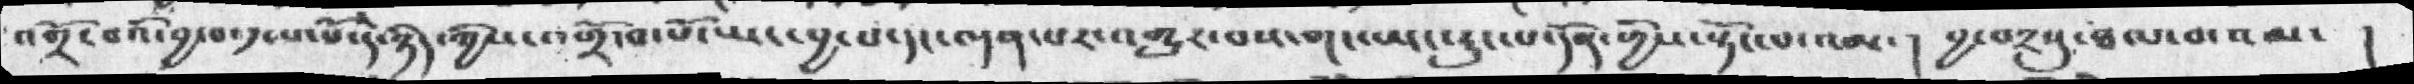འགྲོ་བའི་བྱ་བ་༡་པ་པོ་དེ་ཉིད་ཀྱིས་འགྲོ་བ་པོ་ཡང་བྱ་བ་དང་ལྡན་པར་འགྱུར་བས་གང་ཡང་རུང་པ་དོན་གྱིས་སྟོང་པ་འམ་། བྱ་བ༢སུ་ཐལ་བ་འམ་ །
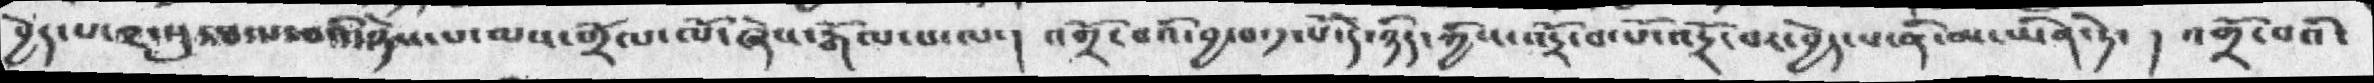བྱེད་པ་༢སུ་ཐལ་བའི་ཉེས་པ་ལས་གྲོལ་ལོ་ཞེས་རྒོལ་པ་ལ་།  འགྲོ་བའི་བྱ་བ་༡་པོ་དེ་ཉིད་ཀྱིས་འདྲོ་བ་པོ་འདྲོ་བར་བྱེད་པ་ནི་མ་ཡིན་ཏེ་། འགྲོ་བའི་
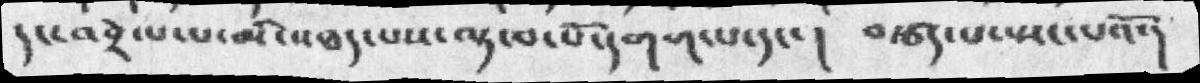དང་འབྲེལ་པ་པ་མི་འཐད་པས་ལྟ་བ་པོ་དགག་པ་དང་། བརྩད་པ་སྤང་པའོ་།
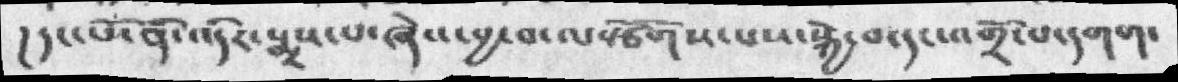།དང་པོ་ནི་འདིར་སྨྲས་པ་ཞེས་བྱ་བ་ལསྩོགས་པས་སྐྱེ་བ་དང་འགྲོ་བ་དགག་
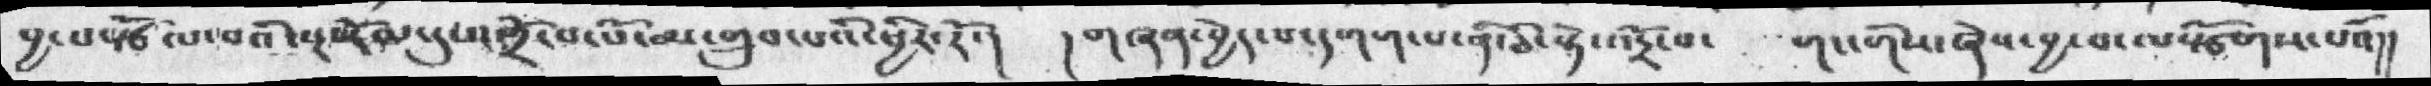བྱ་བ་རྩོལ་བའི་སྔ་རོལ་དུ་འགྲོ་བ་པོ་མ་གྲུབ་པའི་ཕྱིར་རོ་།  །གཞན་བྱེད་པ་དགག་པ་ནི་ཅི་སྟེ་འདྲོ་བ་   གང་གིས་ཞེས་བྱ་བ་ལསྩོགས་པའོ།།
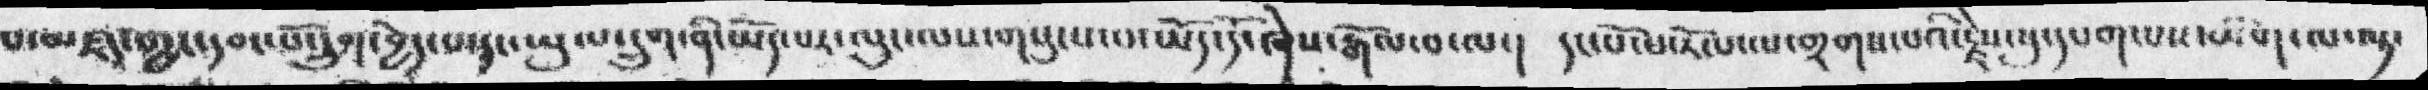པ་མཛད་ཀྱང་དབང་པོ་དྲུག་བྱེད་པ་དང་ཡུལ་དྲུག་ནི་ཡོད་པར་ལུང་ལས་གསུངས་པ་ཡོད་དོ་ཞེས་རྒོལ་བ་ལ་།  དང་པོ་ཕ་རོལ་ལ་གྲགས་པའི་རྗེས་སུ་དཔག་པས་མིག་ལ་ལྟ་
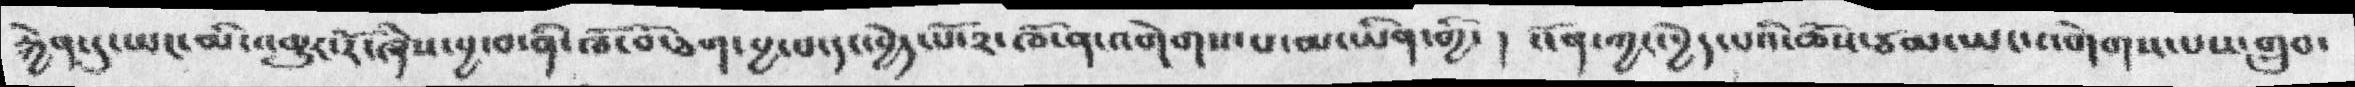རྐྱེན་དུ་ཡང་མི་འགྱུར་རོ་ཞེས་བྱ་བ་ནི་ཁོ་བོ་ཅག་བྱ་བ་དང་བྱེད་པོ་༢་ཁོ་ན་འགེགས་པ་མ་ཡིན་གྱི་།  འོན་ཀྱང་བྱེད་པའི་ཆོས་ཙམ་ཡང་འགེགས་པས་གྲུབ་
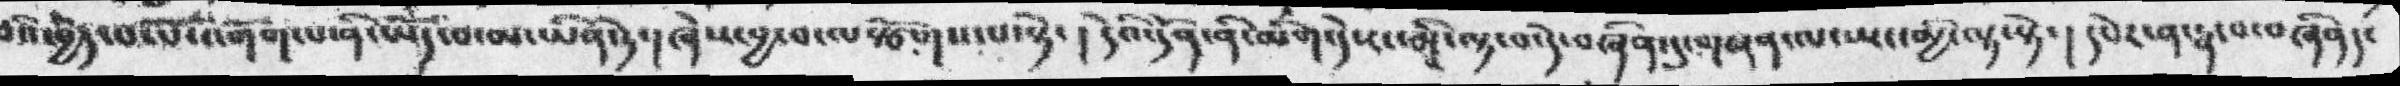བའི་བྱེད་པ་པོ་འགོག་པ་ནི་ཡོད་བ་མ་ཡིན་ཏེ་། ཞེས་བྱ་བ་ལསྩོགས་པ་སྟེ་། དེའི་དོན་ནི་མིག་དེས་མི་ལྟ་བ་དེ་བཞིན་དུ་གསན་ལ་ཡང་མྱི་ལྟ་སྟེ་། དཔེར་ན་རྣ་བ་བཞིནད་
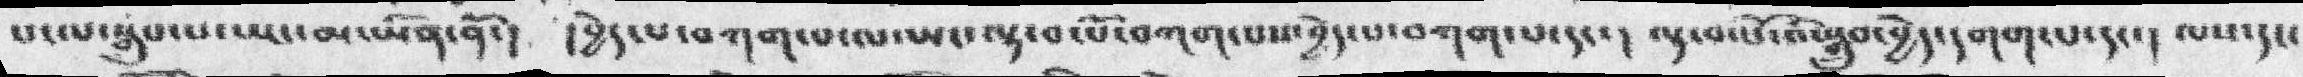པ་ལ་སྒྲུབ་པ་ཡང་མ་ཡིན་ནོ་།  །བྱེད་པ་བཀག་པ་ལ་ཡང་ལྟ་བ་པོ་བཀག་པས་བྱེད་པ་བཀག་པ་དང་། ལྟ་བ་པོ་འི་སྒྲུབ་བྱེད་དགག་པ་དང་། ལས་དང་
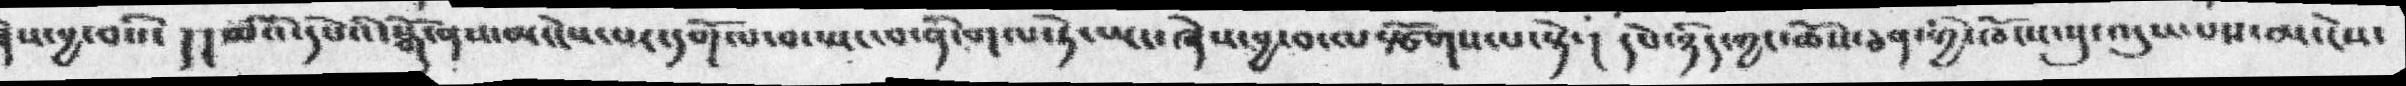ཞེས་བྱ་བའི་།།ཚའི་དཔེའི་སྒོ་ནས་མ་ངེས་པར་དགོལ་བ་སྤང་བ་ནི་གལ་ཏེ་ཡང་ཞེས་བྱ་བ་ལསྩོགས་པ་སྟེ་། དཔེ་ཉིད་ཀྱི་ཆོས་ཅན་ཀྱི་ཁོངས་སུ་འདུས་པས་མ་ངེས་
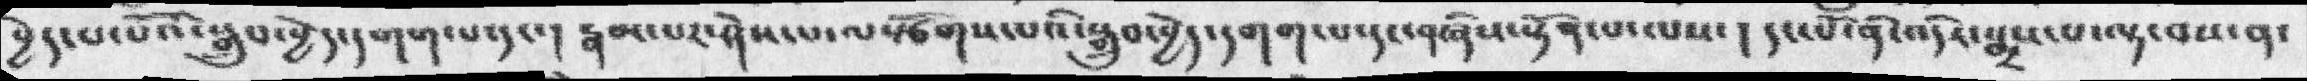བྱེད་པ་པོའི་སྒྲུབ་བྱེད་དགག་པ་དང་། རྣམ་པར་ཤེས་པ་ལསྩོགས་པའི་སྒྲུབ་བྱེད་དགག་པ་དང་བཞིས་སྟོན་པ་ལས་། དང་པོ་ནི་འདིར་སྨྲས་པ་ལྟ་བས་ན་
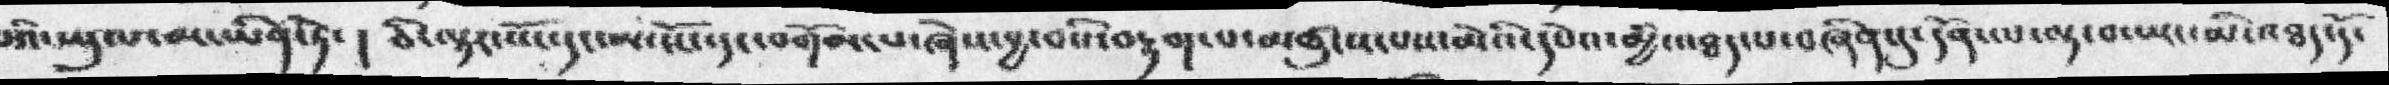པའི་ཡུལ་མ་ཡིན་ཏེ་།  ཅི་ལྟར་སོང་དང་མ་སོང་དང་བགོམ་པ་ཞེས་བྱ་བའི་བརྟག་པ་མཚུངས་པས་མེའི་དཔེའ་མྱི་འཐད་པ་བཞིན་དུ་དོན་ལ་ལྟ་བ་ཡང་མི་འཐད་དོ་
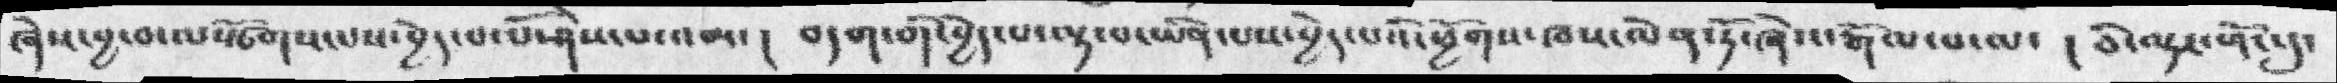ཞེས་བྱ་བ་ལསྩོགས་པས་བྱེད་པ་པོ་ཤེས་པ་འམ་།  བདག་གི་བྱེད་པ་ལྟ་བ་ཡིན་པས་བྱེད་པའི་ཕྱོགས་ཁས་ལེན་ཏོ་ཞེས་རྒོལ་པ་ལ་། ཅི་ལྟར་གོང་དུ་
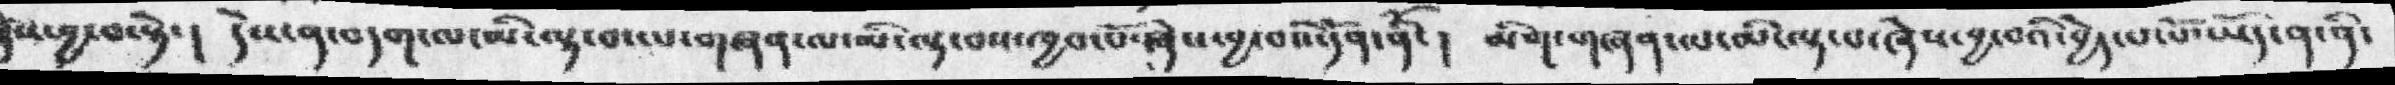ས་བྱ་བ་སྟེ་།  དེས་ན་བདག་ལ་མི་ལྟ་བ་ལ་གཞན་ལ་མི་ལ་བས་ཁྱབ་པོ་ཞེས་བྱ་བའི་དོན་ནོ་།  མིག་གཞན་ལ་མི་ལྟ་པ་ཞེས་བྱ་བའི་བྱེད་པ་པོ་ཡོད་ན་ནི་
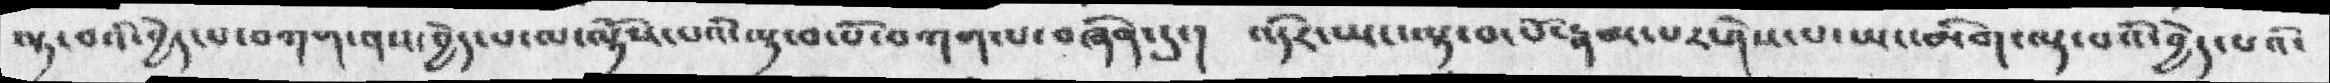ལྟ་བའི་བྱེད་པ་བཀག་ནས་བྱེད་པ་ལ་ལྟོས་པའི་ལྟ་བ་པོ་བཀག་པ་བཞིན་དུ་།  འདིར་ཡང་ལྟ་བ་པོ་རྣམ་པར་ཤེས་པ་ཡང་མིག་ལྟ་བའི་བྱེད་པའི་
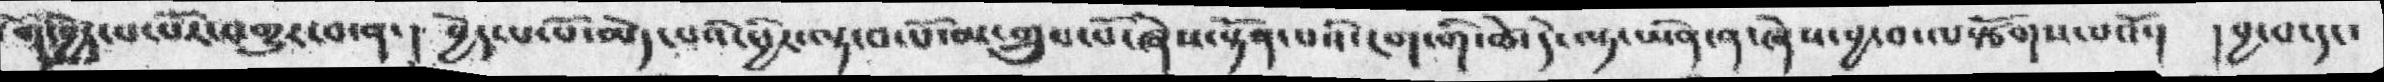གོ་བྱེད་པ་པོར་འགྱུར་བ་ན་། བྱེད་པ་པོ་མེད་པའི་ཕྱིར་ལྟ་བ་པོ་མ་གྲུབ་པོ་ཞེས་སྟོན་པའི་ངག་གི་ཚེ་དེ་ལྟ་ཡིན་ན་ཞེས་བྱ་བ་ལསྩོགས་པའོ་། །བྱ་བ་དང་
